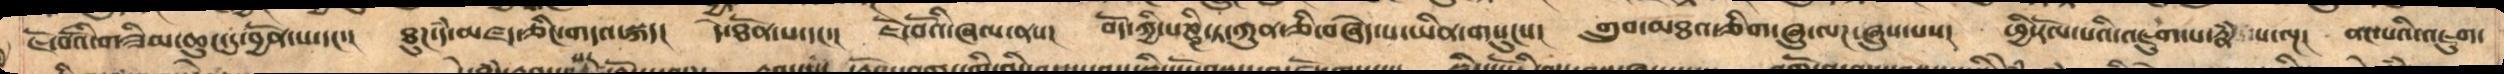ཇོ་བོའི་གཟིམ་ཆུང་དུ་བྱོན་པ་དང་།   ཐུཌ་དཾ་མཛད་ཅིང་གདའ་སྐད།   དེ་ཐོན་པ་དང་།   ཇོ་བོའི་ཞལ་ནས།  བོད་ཀྱི་པཎྜི་ཏ་ཀུན་ཅི་བཞེད་པ་ཡིན་གསུངས།   གྲུབ་མཐའ་ཅིག་ཞུ་ལཌ་ཞུས་པས།  ཕྱི་རོལ་པའི་འཇུག་པ་རྣཾ་པ་ལྔ།   ནང་པའི་འཇུག་
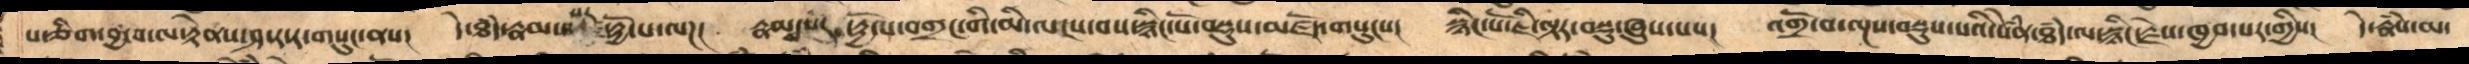པ་ཅིག་བྱ་བ་ལ་རྟེནས་ཤ་ར་ར་གསུང་ནས།   དེ་ཐཾད་རྣམ་པར་རྟྱོ་པ་ལཌ།  རྣམས་པར་རྟྱོ་པ་བགྲང་གི་མི་ལངས་བས་སྙིང་པོ་བསྡུས་མཛོད་གསུངས།  སྙིང་པོ་ཇི་ལྟར་བསྡུ་ཞུས་པས།  འགྲོ་བ་ལྔས་བསྡུས་པའི་སེཾན་ཐཾད་ལ་སྙིང་རྗེས་ཁྱབ་པར་གྱིས།  དེ་རྣཾས་མ་
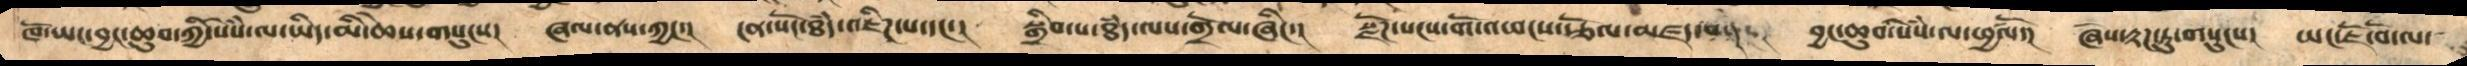ཁོ་ཡང་བྱང་ཆུབ་ཀྱི་སེཾས་ལ་ཡིད་མི་ཆེས་གསུངས།  ཞལ་ནས་ཀྱང་།  ངན་སོང་ཐཾད་འཇིཌ་པ་དང་།  སྒྲིབ་པ་ཐཾད་ལས་གྲོལ་ཞིང་།  སྫོཌ་སངས་གོ་འཕངས་ཙོལ་མཛད་པ་།  བྱང་ཆུབ་སེཾས་ལ་ཕྱཚལོ་།  ཞེས་རྟཌཏུ་གསུངས།  ཡང་ཇོ་བོ་ལ་
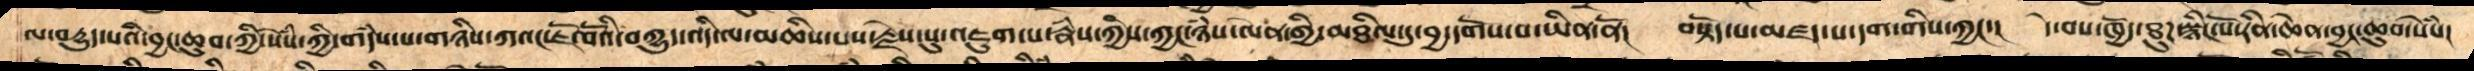ལ་བདྱུད་པའི་བྱང་ཆུབ་ཀྱི་སེཾས་ཀྱི་གདཾས་པ་གཉིས་ཀའང་ཇོ་བོའི་བཀྱུད་འདི་ལ་མཆིས་པས་རྗེས་སུ་འཇུག་པ་རྣཾས་ཀྱིས་ཀྱང་ཉཾས་ལེན་གྱི་མཐིལ་དུ་བྱ་དགོས་པ་ཡིན་ནོ།   བསྟོད་པ་མཛད་པ་དག་གིས་ཀྱང་།   དེ་བས་ཁྱོད་ཐུཌ་སྙིང་པོ་རིན་ཆེན་བྱང་ཆུབ་སེཾས།
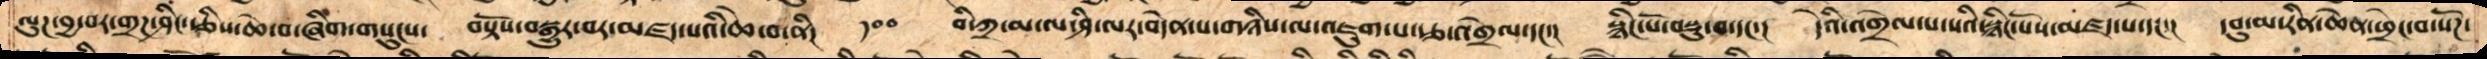ལུཌ་བྱ་བར་གྲཌ་ཤིང་རྩིས་ཆེ་བ་ཞིག་གསུངས།  བསྟོས་བསྒྱུར་བར་མཛད་པའི་ཆེ་བ་ནི།  ༡༠༠ བི་ཀྲ་མ་ཤི་ལར་བདེན་པ་གཉིས་ལ་འཇུག་པ་རྩ་འགྲེལ་དང་།  སྙིང་པོ་བསྡུ་བ་དང་།  དེའི་འགྲིལ་པ་སའི་སྙིང་པོས་མཛད་པ་དང་།  དབུ་མ་རིན་ཆེན་ཕྲེང་བ་སོཌ་
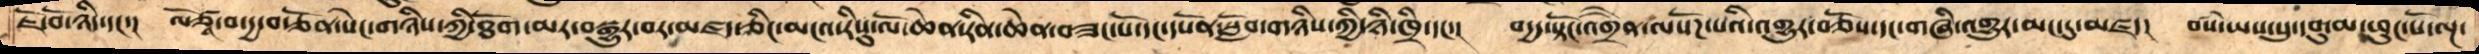ཇོ་བོ་ཉིད་དང་།  ལོཙྪ་བ་དྱ་བརྩོན་སེང་གཉིས་ཀྱི་ཐོག་མར་བསྒྱུར་བར་མཛད་ཅིང་མངའ་རིསུ་ལོ་ཆེན་རིན་ཆེན་བཟང་པོ་དང་དཔོན་སློབ་གཉིས་ཀྱི་ཉི་ཁྲི་དང་།   བདྱད་སྟོང་འགྲཻན་ལསོཌ་པའི་འགྱུར་བཅོས་དང་གཞི་འགྱུར་མང་དུ་མཛད།  བསཾ་ཡས་སུ་དབུ་མ་ཕུང་པོ་ལྔ་
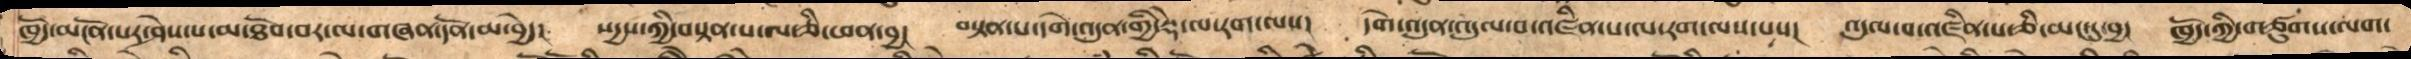ཁྱོད་མངོན་པར་ཤེས་པ་མ་ཐོབ་བར་ལ་གཞན་དོན་མ་བྱེད།  སདྱས་ཀྱི་བསྟན་པ་ལ་ཅི་ཕན་བྱ།   བསྟན་པ་དགེ་འདུན་གྱི་སྡེ་ལ་རག་ལས།   དགེ་འདུན་འདུལ་བ་འཛིན་པ་ལ་རག་ལས་པས།  འདུལ་བ་འཛིན་པ་ཅི་མང་དུ་བྱ།   ཁྱོད་ཀྱི་གཙུགས་ལག་
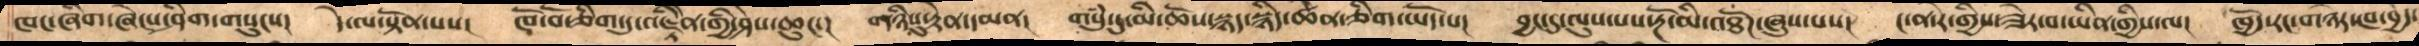ཁང་ཞིག་ཞེངས་ཤིག་གསུངས།   དེ་ལ་སྟོན་པས།  ཁོ་བོ་ཅིག་དུ་འཇྟིེན་གྱི་ཤེས་ཆུང་།   གཉིསུ་རྟེན་དམན།   གསུཾ་དུ་མི་ཆོས་སྙད་སྙིད་ཚན་ཅིག་ཡོད་པ།    བྱང་དུ་ལུས་པས་རྔོ་མི་འཐོཌ་ཞུས་པས།  ང་ན་རེ་གྱིས་ཟེར་བ་ཡིན་གྱིས་ལ།  ཁྱོད་རང་གཉེར་ཁ་བྱེད་
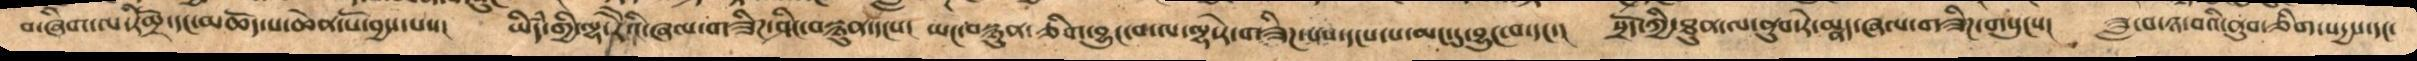བ་ཞིག་ལ་རིམྲོ་དང་མཆོད་པ་ཆེན་པོ་བྱས་པས།   ཡིདཾ་གྱི་ལྷ་རཻའི་ཞལ་གཟིཌ་ཤིང་བསྙུན་དངས།   ཡང་བསྙུན་ ཅིག་བྱུང་བ་ལ་ལྷ་རེ་གཟིཌ་པས་དངས་པ་མང་དུ་བྱུང་བ་དང་།  སྲོད་ཀྱི་ཐུན་ལ་ནུབ་རེ་མྣད་ཞལ་གཟིཌ་གསུངས།  ཟླ་བ་ཉ་བའི་ནུབ་ཅིག་སདྱས་དང་
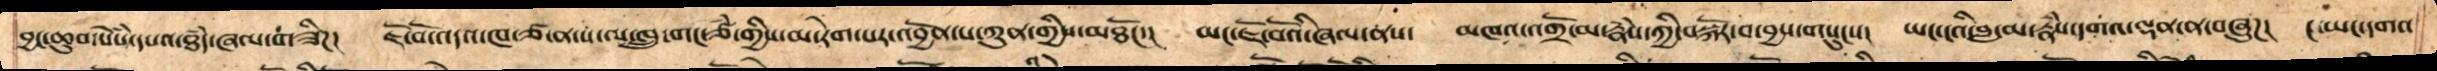བྱང་ཆུབ་སེཾས་དཔའ་ཐཾད་ཞལ་གཟིཌ།   ཇོ་བོ་འདའ་ཁ་ཙ་ན་ས་ལ་ཁྲུ་གང་ཙཾ་གྱིས་མ་རེག་པར་འབྱོན་པ་ཀུན་གྱིས་མཐོང་།   ཡང་ཇོ་བོའི་ཞལ་ནས།   མཁའ་འགྲོ་མ་རྣཾས་ཀྱི་བསྐོར་བ་བྱས་གསུངས།   ཡང་ངའི་བླ་མ་རྣཾས་དགའ་ལྡན་ན་བཞུཌ།  ང་ཡང་དགའ
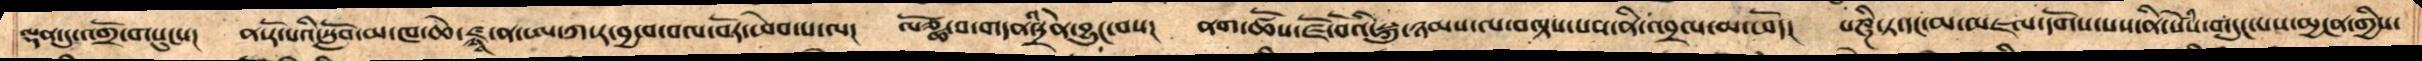ལྡན་དུ་འགྲོ་གསུངས།    ན་རོ་པའི་སློབ་མ་ཁ་ཆེ་ཛྙ་ན་ཨ་ཀ་ར་བྱ་བ་བལ་བོར་ཕེབ་པ་ལ།   ལོཙྪ་བ་གདན་འདྲེན་བྱུང་བས།    ནག་ཚོས་ཇོ་བོའི་སྐུ་ཉམས་ལ་བལྟས་པས་ནི་འབྲལ་མ་ཕོད།   པཎྜི་ཏའང་མ་མཇལ་དགོས་པས་ནི་སེཾས་གདུང་པས་མྱ་ངན་གྱིས་
